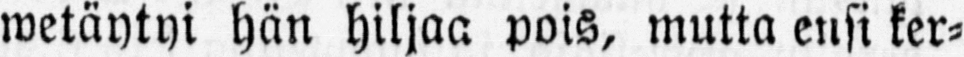wetäytyi hän hiljaa pois, mutta ensi ker-
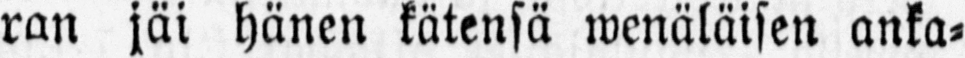ran jäi hänen kätensä wenäläisen anka-
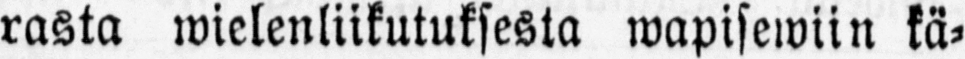rasta wielenliikutuksesta wapisewiin kä-
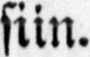siin.
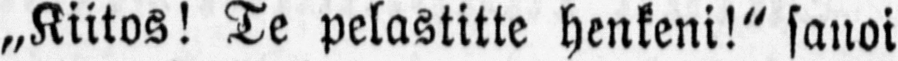„Kiitos! Te pelastitte henkeni!" sanoi
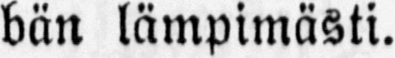bän lämpimästi.
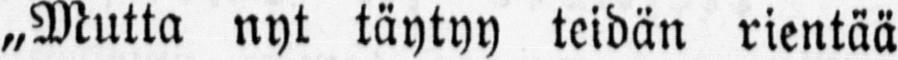„Mutta nyt täytyy teidän rientää
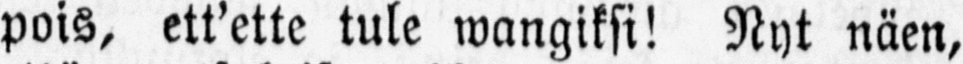pois, ett'ette tule wangiksi! Nyt näen,
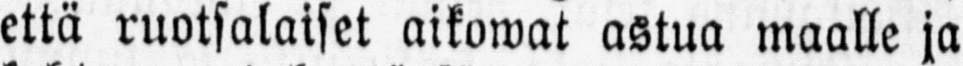että ruotsalaiset aikowat astua maalle ja
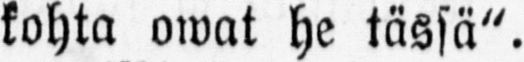kohta owat he tässä".
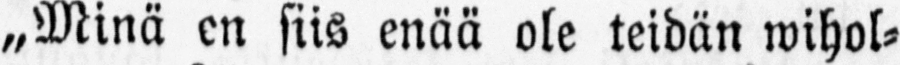„Minä en siis enää ole teidän wihol-
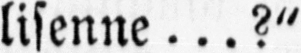lisenne... ?"
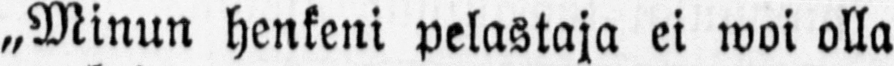„Minun henkeni pelastaja ei woi olla
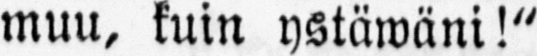muu, kuin ystäwäni!"
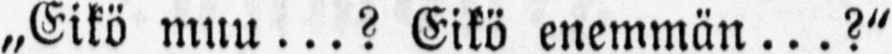„Eikö muu...? Eikö enemmän...?"
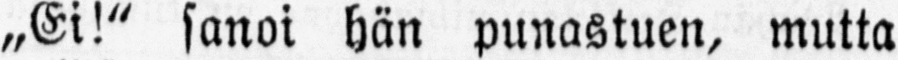„Ei!" sanoi hän punastuen, mutta
